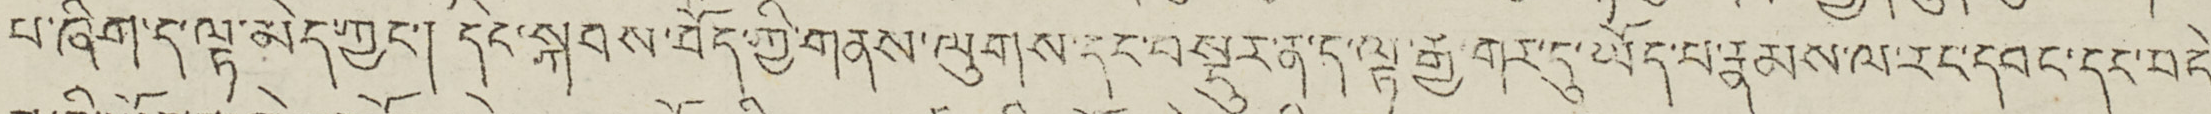པ་ཞིག་ད་ལྟ་མེད་ཀྱང་། དེང་སྐབས་བོད་ཀྱི་གནས་ལུགས་དང་བསྡུར་ན་ད་ལྟ་རྒྱ་གར་དུ་ཡོད་པ་རྣམས་ལ་རང་དབང་དང་བདེ་
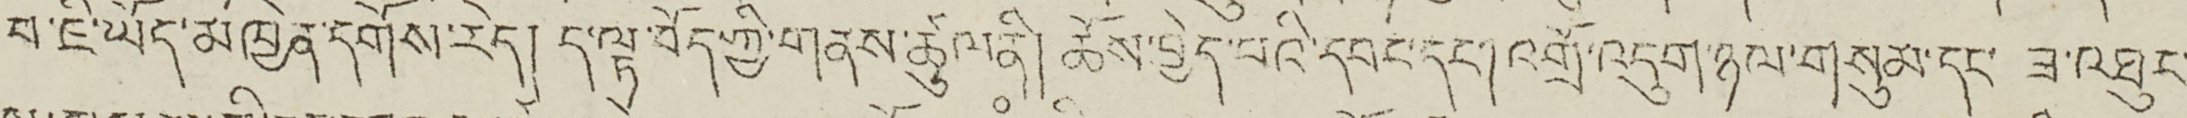བ་ཇི་ཡོད་མཁྱེན་དགོས་རེད། ད་ལྟ་བོད་ཀྱི་གནས་ཚུལ་ནི། ཆོས་བྱེད་པའི་དབང་དང་། འགྲོ་འདུག་ཉལ་གསུམ་དང་ ཟ་འཐུང་
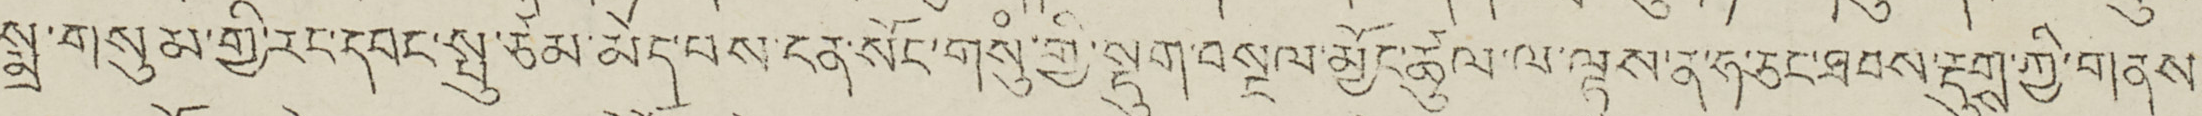སྨྲ་གསུམ་གྱི་རང་དབང་སྤུ་ཙམ་མེད་པས་ངན་གསུཾ་གྱི་སྡུག་བསྔལ་མྱོང་ཚུལ་ལ་ལྟས་ན་ཧ་ཅང་ཐབས་རྡུགས་ཀྱི་གནས་
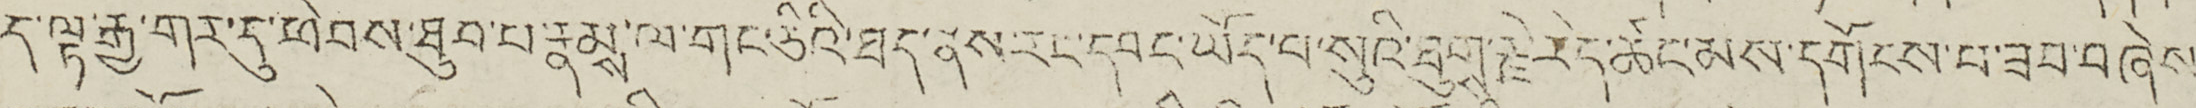ད་ལྟ་རྒྱ་གར་དུ་ཕེབས་ཐུབ་པ་རྣམས་ལ་གང་ཅིའི་ཐད་ནས་རང་དབང་ཡོད་པ་སུའི་ཐུགས་རྗེ་རེད་ཚང་མས་དགོངས་པ་ཟབ་བཞེས་
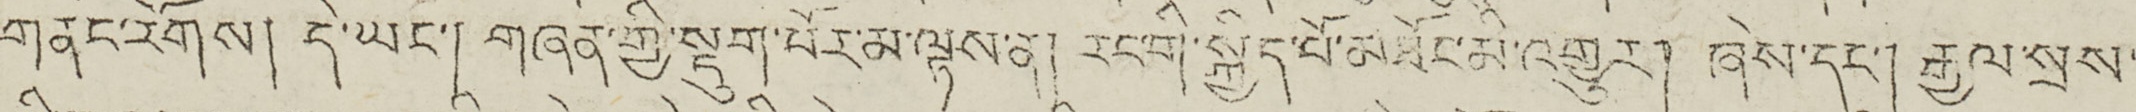གནང་རོགས། དེ་ཡང་། གཞན་གྱི་སྡུག་པོར་མ་ལྟས་ན། རང་གི་སྐྱིད་པོ་མཐོང་མི་འགྱུར། ཞེས་དང་། རྒྱལ་སྲས་
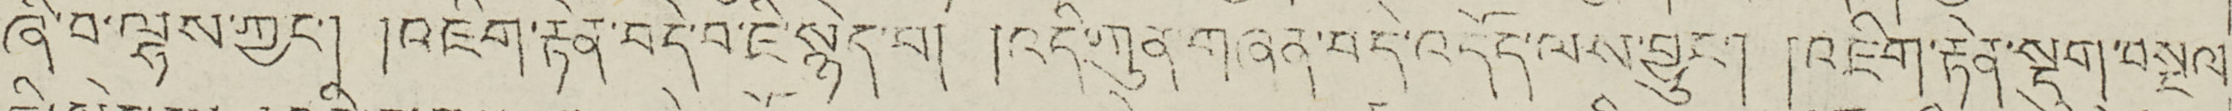ཞི་བ་ལྷས་ཀྱང་། །འཇིག་རྟེན་བདེ་བ་ཇི་སྙེད་པ། །འདི་ཀུན་གཞན་བདེ་འདོད་ལས་བྱུང་། །འཇིག་རྟེན་སྡུག་བསྔལ་
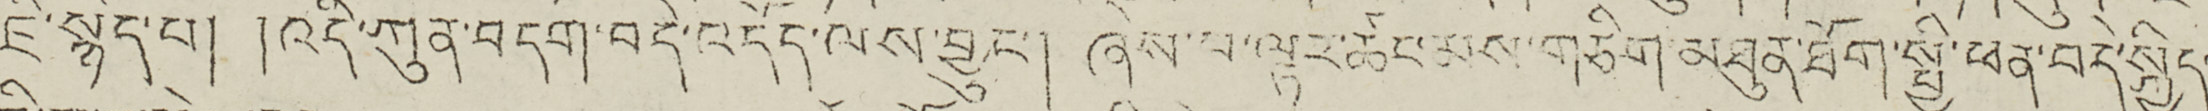ཇི་སྙེད་པ། །འདི་ཀུན་བདག་བདེ་འདོད་ལས་བྱུང་། ཞེས་པ་ལྟར་ཚང་མས་གཅིག་མཐུན་ཐོག་སྤྱི་ཕན་བདེ་སྐྱིད་
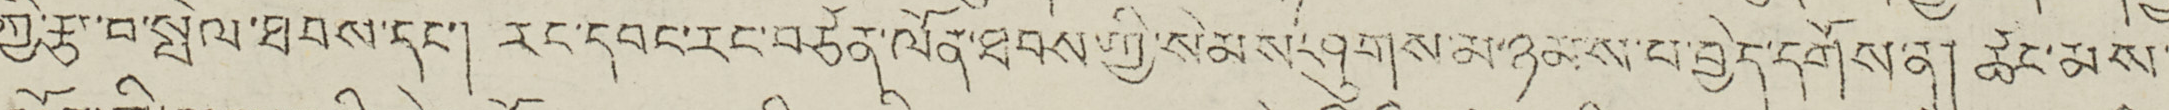ཀྱི་རྩ་བ་སྤེལ་ཐབས་དང་། རང་དབང་རང་བཙན་ལོན་ཐབས་ཀྱི་སེམས་ཤུགས་མ་ཉམས་པ་བྱེད་དགོས་ན། ཚང་མས་
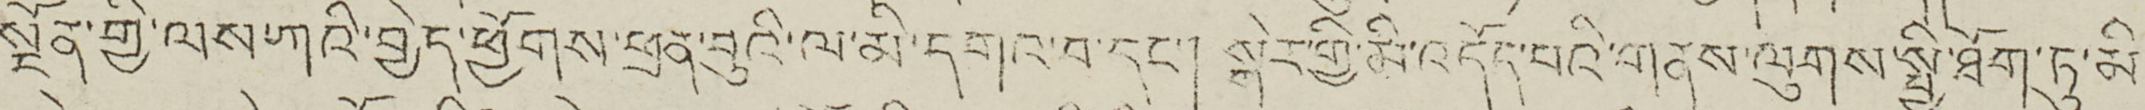སྔོན་གྱི་ལས་ཀའི་བྱེད་ཕྱོགས་ཕྲན་བུའི་ལ་མི་དགའ་བ་དང་། སྒེར་གྱི་མི་འདོད་པའི་གནས་ལུགས་སྤྱི་ཐོག་ཏུ་མི་
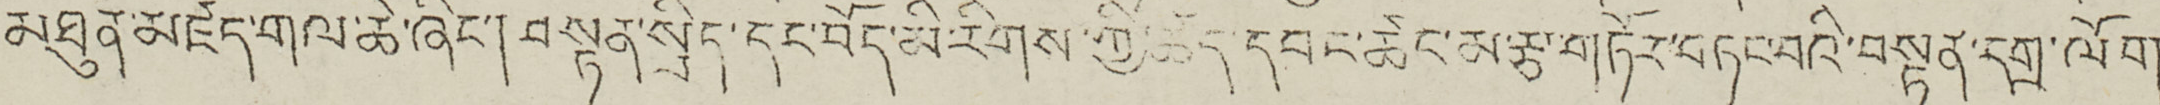མཐུན་མཛད་གལ་ཆེ་ཞིང་། བསྟན་སྲིད་དང་བོད་མི་རིགས་ཀྱི་ཚད་དབང་ཚང་མ་རྩ་གཏོར་བཏང་བའི་བསྟན་དགྲ་ལོག་
